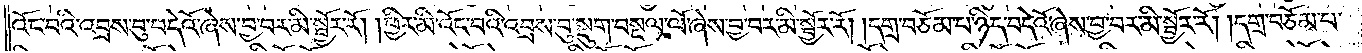འོང་བའི་འབྲས་བུ་བདེའོ་ཞེས་བྱ་བར་མི་སྦྱོར་རོ། །ཕྱིར་མི་འོང་བའི་འབྲས་བུ་སྡུག་བསྔལ་ལོ་ཞེས་བྱ་བར་མི་སྦྱོར་རོ། །དགྲ་བཅོམ་པ་ཉིད་བདེའོ་ཞེས་བྱ་བར་མི་སྦྱོར་རོ། །དགྲ་བཅོམ་པ་
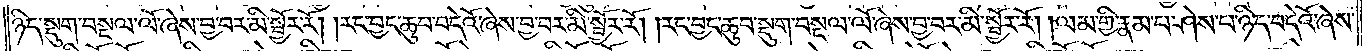ཉིད་སྡུག་བསྔལ་ལོ་ཞེས་བྱ་བར་མི་སྦྱོར་རོ། །རང་བྱང་ཆུབ་བདེའོ་ཞེས་བྱ་བར་མི་སྦྱོར་རོ། །རང་བྱང་ཆུབ་སྡུག་བསྔལ་ལོ་ཞེས་བྱ་བར་མི་སྦྱོར་རོ། །ལམ་གྱི་རྣམ་པ་ཤེས་པ་ཉིད་བདེའོ་ཞེས་
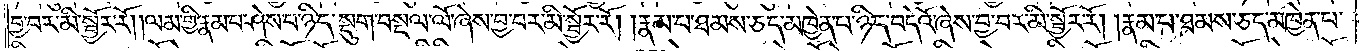བྱ་བར་མི་སྦྱོར་རོ། །ལམ་གྱི་རྣམ་པ་ཤེས་པ་ཉིད་སྡུག་བསྔལ་ལོ་ཞེས་བྱ་བར་མི་སྦྱོར་རོ། །རྣམ་པ་ཐམས་ཅད་མཁྱེན་པ་ཉིད་བདེའོ་ཞེས་བྱ་བར་མི་སྦྱོར་རོ། །རྣམ་པ་ཐམས་ཅད་མཁྱེན་པ་
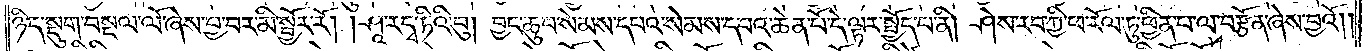ཉིད་སྡུག་བསྔལ་ལོ་ཞེས་བྱ་བར་མི་སྦྱོར་རོ། །ཤཱ་ར་དྭ་ཏིའི་བུ། བྱང་ཆུབ་སེམས་དཔའ་སེམས་དཔའ་ཆེན་པོ་དེ་ལྟར་སྤྱོད་པ་ནི། ཤེས་རབ་ཀྱི་ཕ་རོལ་ཏུ་ཕྱིན་པ་ལ་བརྩོན་ཞེས་བྱའོ། །
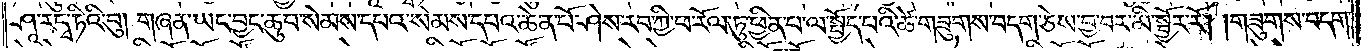ཤཱ་ར་དྭ་ཏིའི་བུ། གཞན་ཡང་བྱང་ཆུབ་སེམས་དཔའ་སེམས་དཔའ་ཆེན་པོ་ཤེས་རབ་ཀྱི་ཕ་རོལ་ཏུ་ཕྱིན་པ་ལ་སྤྱོད་པའི་ཚེ་གཟུགས་བདག་ཅེས་བྱ་བར་མི་སྦྱོར་རོ། །གཟུགས་བདག་
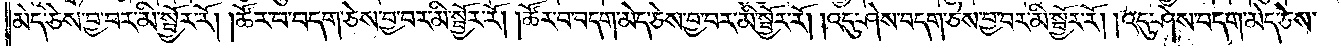མེད་ཅེས་བྱ་བར་མི་སྦྱོར་རོ། །ཚོར་བ་བདག་ཅེས་བྱ་བར་མི་སྦྱོར་རོ། །ཚོར་བ་བདག་མེད་ཅེས་བྱ་བར་མི་སྦྱོར་རོ། །འདུ་ཤེས་བདག་ཅེས་བྱ་བར་མི་སྦྱོར་རོ། །འདུ་ཤེས་བདག་མེད་ཅེས་
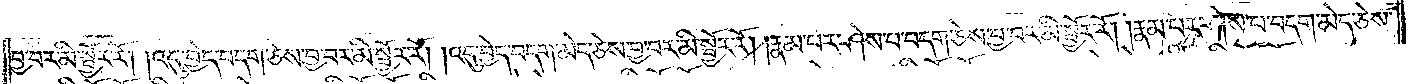བྱ་བར་མི་སྦྱོར་རོ། །འདུ་བྱེད་བདག་ཅེས་བྱ་བར་མི་སྦྱོར་རོ། །འདུ་བྱེད་བདག་མེད་ཅེས་བྱ་བར་མི་སྦྱོར་རོ། །རྣམ་པར་ཤེས་པ་བདག་ཅེས་བྱ་བར་མི་སྦྱོར་རོ། །རྣམ་པར་ཤེས་པ་བདག་མེད་ཅེས་
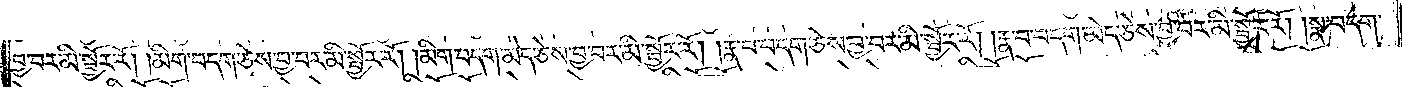བྱ་བར་མི་སྦྱོར་རོ། །མིག་བདག་ཅེས་བྱ་བར་མི་སྦྱོར་རོ། །མིག་བདག་མེད་ཅེས་བྱ་བར་མི་སྦྱོར་རོ། །རྣ་བ་བདག་ཅེས་བྱ་བར་མི་སྦྱོར་རོ། །རྣ་བ་བདག་མེད་ཅེས་བྱ་བར་མི་སྦྱོར་རོ། །སྣ་བདག་
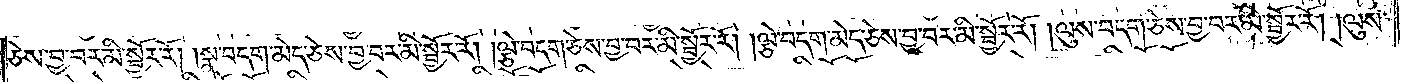ཅེས་བྱ་བར་མི་སྦྱོར་རོ། །སྣ་བདག་མེད་ཅེས་བྱ་བར་མི་སྦྱོར་རོ། །ལྕེ་བདག་ཅེས་བྱ་བར་མི་སྦྱོར་རོ། །ལྕེ་བདག་མེད་ཅེས་བྱ་བར་མི་སྦྱོར་རོ། །ལུས་བདག་ཅེས་བྱ་བར་མི་སྦྱོར་རོ། །ལུས་
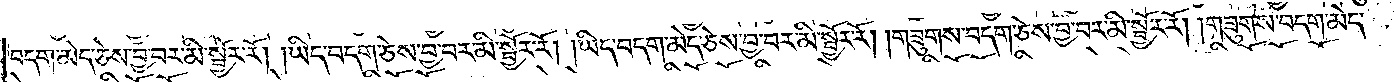བདག་མེད་ཅེས་བྱ་བར་མི་སྦྱོར་རོ། །ཡིད་བདག་ཅེས་བྱ་བར་མི་སྦྱོར་རོ། །ཡིད་བདག་མེད་ཅེས་བྱ་བར་མི་སྦྱོར་རོ། །གཟུགས་བདག་ཅེས་བྱ་བར་མི་སྦྱོར་རོ། །གཟུགས་བདག་མེད་
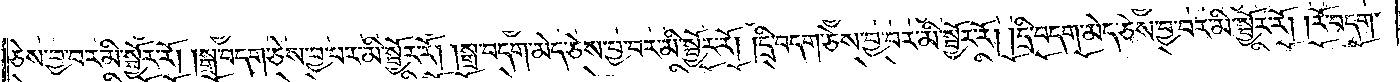ཅེས་བྱ་བར་མི་སྦྱོར་རོ། །སྒྲ་བདག་ཅེས་བྱ་བར་མི་སྦྱོར་རོ། །སྒྲ་བདག་མེད་ཅེས་བྱ་བར་མི་སྦྱོར་རོ། །དྲི་བདག་ཅེས་བྱ་བར་མི་སྦྱོར་རོ། །དྲི་བདག་མེད་ཅེས་བྱ་བར་མི་སྦྱོར་རོ། །རོ་བདག་
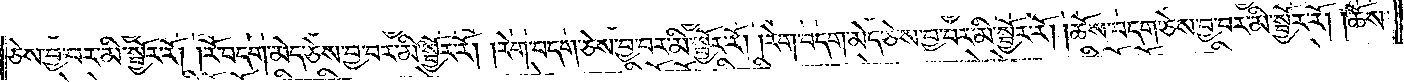ཅེས་བྱ་བར་མི་སྦྱོར་རོ། །རོ་བདག་མེད་ཅེས་བྱ་བར་མི་སྦྱོར་རོ། །རེག་བདག་ཅེས་བྱ་བར་མི་སྦྱོར་རོ། །རེག་བདག་མེད་ཅེས་བྱ་བར་མི་སྦྱོར་རོ། །ཆོས་བདག་ཅེས་བྱ་བར་མི་སྦྱོར་རོ། །ཆོས་
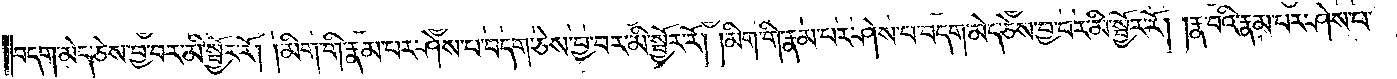བདག་མེད་ཅེས་བྱ་བར་མི་སྦྱོར་རོ། །མིག་གི་རྣམ་པར་ཤེས་པ་བདག་ཅེས་བྱ་བར་མི་སྦྱོར་རོ། །མིག་གི་རྣམ་པར་ཤེས་པ་བདག་མེད་ཅེས་བྱ་བར་མི་སྦྱོར་རོ། །རྣ་བའི་རྣམ་པར་ཤེས་པ་
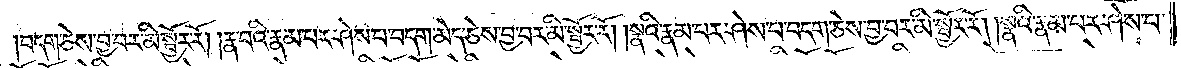བདག་ཅེས་བྱ་བར་མི་སྦྱོར་རོ། །རྣ་བའི་རྣམ་པར་ཤེས་པ་བདག་མེད་ཅེས་བྱ་བར་མི་སྦྱོར་རོ། །སྣའི་རྣམ་པར་ཤེས་པ་བདག་ཅེས་བྱ་བར་མི་སྦྱོར་རོ། །སྣའི་རྣམ་པར་ཤེས་པ་
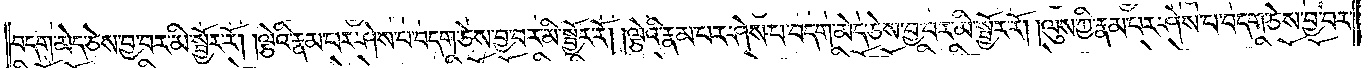བདག་མེད་ཅེས་བྱ་བར་མི་སྦྱོར་རོ། །ལྕེའི་རྣམ་པར་ཤེས་པ་བདག་ཅེས་བྱ་བར་མི་སྦྱོར་རོ། །ལྕེའི་རྣམ་པར་ཤེས་པ་བདག་མེད་ཅེས་བྱ་བར་མི་སྦྱོར་རོ། །ལུས་ཀྱི་རྣམ་པར་ཤེས་པ་བདག་ཅེས་བྱ་བར་
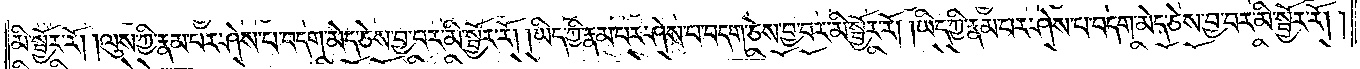མི་སྦྱོར་རོ། །ལུས་ཀྱི་རྣམ་པར་ཤེས་པ་བདག་མེད་ཅེས་བྱ་བར་མི་སྦྱོར་རོ། །ཡིད་ཀྱི་རྣམ་པར་ཤེས་པ་བདག་ཅེས་བྱ་བར་མི་སྦྱོར་རོ། །ཡིད་ཀྱི་རྣམ་པར་ཤེས་པ་བདག་མེད་ཅེས་བྱ་བར་མི་སྦྱོར་རོ། །
